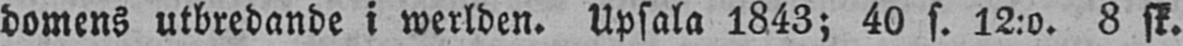domens utbredande i werlden. Upsala 1843; 40 s. 12:o. 8 sk.
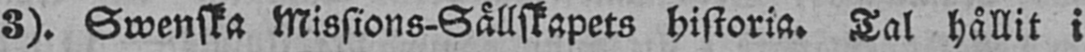3). Swenska Missions-Sällskapets historia. Tal hållit i
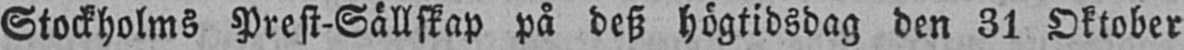Stockholms Prest-Sällskap på desz högtidsdag den 31 Oktober
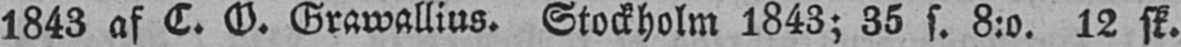1843 af C. O. Grawallius. Stockholm 1843; 35 s. 8:o. 12 sk.
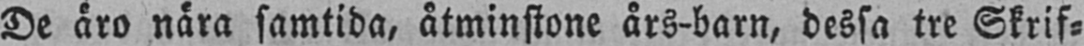De äro nära samtida, åtminstone års-barn, dessa tre Skrif-
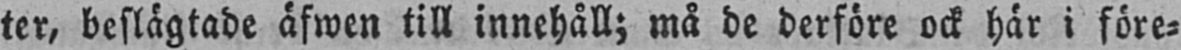ter, beslägtade äfwen till innehåll; må de derföre ock här i före-
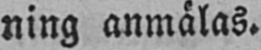ning anmälas.
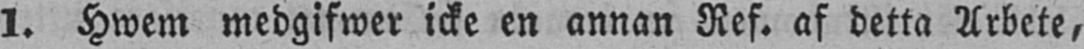1. Hwem medgifwer icke en annan Ref. af detta Arbete,
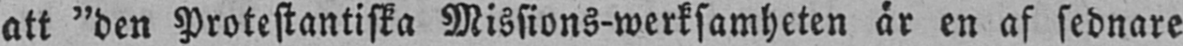att "den Protestantiska Missions-werksamheten är en af sednare
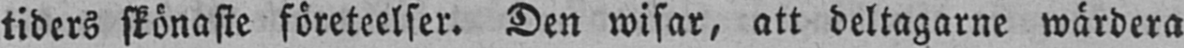tiders skönaste företeelser. Den wisar, att deltagarne wärdera
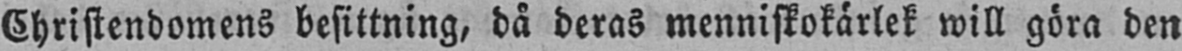Christendomens besittning, då deras menniskokärlek will göra den
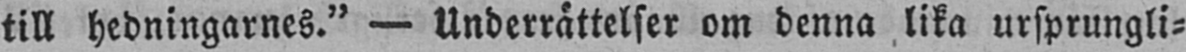till hedningarnes." — Underrättelser om denna lika ursprungli-
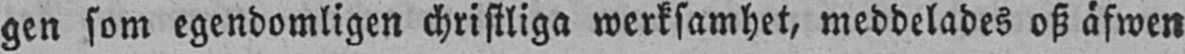gen som egendomligen christliga werksamhet, meddelades osz äfwen
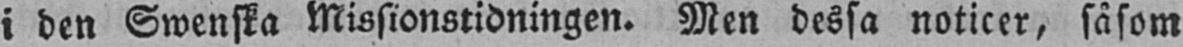i den Swenska Missionstidningen. Men dessa noticer, såsom
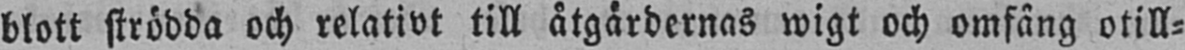blott strödda och relativt till åtgärdernas wigt och omfång otill-
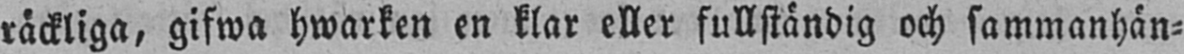räckliga, gifwa hwarken en klar eller fullständig och sammanhän-
